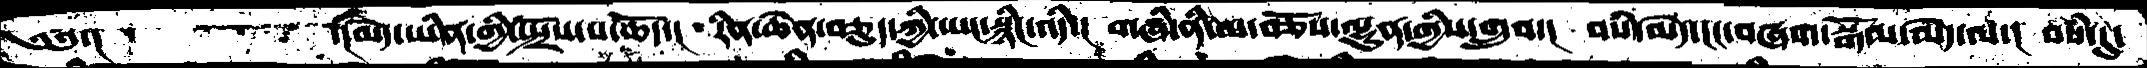༄༅་།       ་།མེད་ཡིན་གྱི་སྤྲོས་པ་ཆོད་།  རིན་ཆེན་བཅུད་ཀྱི་ཡང་སྙིང་འདི་།  གཞི་ནི་མ་བཅོས་ལྷུན་གྱིས་གྲུབ་།  བསཾ་མེད་ངང་བཞག་སྒོམ་མེད་ལ་།  བསཾ་དུ་
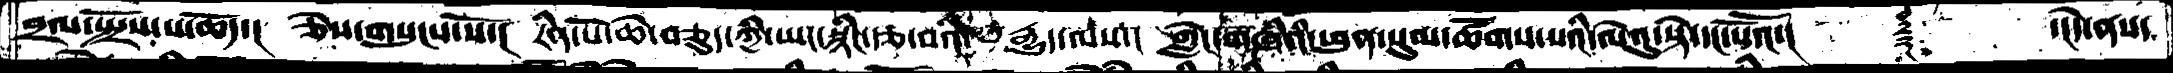བྲལ་སྤྲོས་པ་ཆོད་། ཅེས་གསུངས་སོ་། རིན་པོ་ཆེ་བཅུད་ཀྱི་ཡང་སྙིང་རྩ་བའི་་རྒྱུད་ལས་། གླེང་གཞིའི་ཕུན་སུམ་ཚོགས་པའི་ལེའུ་སྟེ་དང་པོའོ་།   ༈  ་།དེ་ནས་
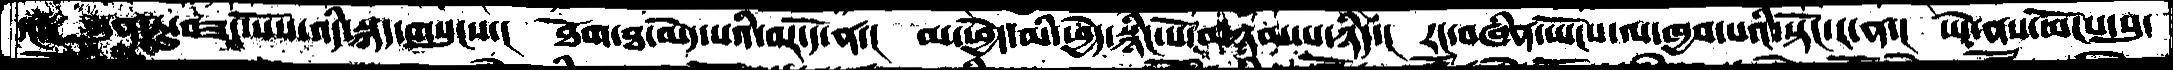དང། ཀུན་ཏུ་བཟང་པོས་འདི་སྐད་གསུངས་། ཐོག་ཐ་མེད་པའི་བར་དོ་ན་། མ་ཕྱེད་མི་ཕྱེད་སྙིང་པོ་མཉམ་པ་ཉིད་། རང་བཞིན་ཡོངས་ལ་ཁྱབ་པའི་སྟོང་ར་ན་། ཡེ་ནས་ཡོངས་སུ་
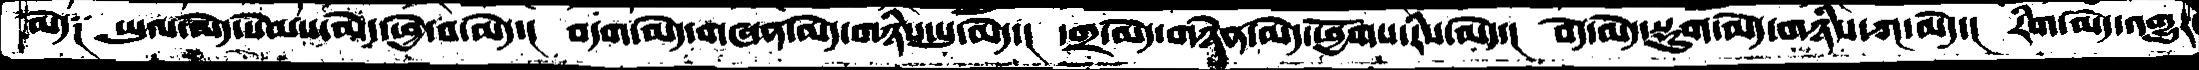མེད༑  ཡུལ་མེད་སེམས་མེད་ཕྱེ་བ་མེད་།  བདག་མེད་གཞན་མེད་གཉིས་སུ་མེད་།  དགྲ་མེད་གཉེན་མེད་ཕྱོགས་རིས་མེད་།  བདེ་མེད་སྡུག་མེད་གཉིས་ཀ་མེད་།  རིག་མེད་འགྱུར་
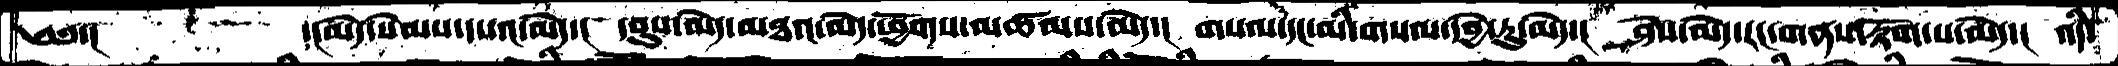༄༅་།      ་།མེད་སེམས་དཔའ་མེད་། དབུས་མེད་མཐའ་མེད་ཕྱོགས་མཚམས་མེད་། གསལ་དང་མི་གསལ་དབྱེ་རུ་མེད་།  ཤེས་མེད་རང་གནས་རྟོག་པ་མེད་།  འདི་
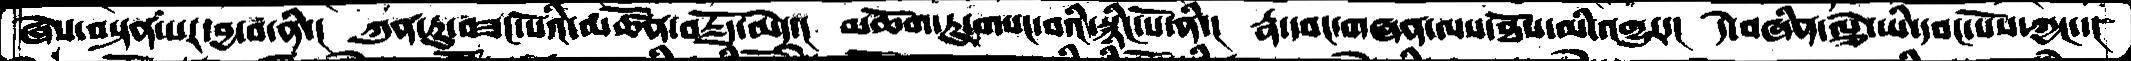ཞེས་བསྟན་པར་བྱ་བ་ནི་།  ཀུན་ཏུ་བཟང་པོའི་མཚོན་བརྗོད་མེད་།  མཆོག་ཏུ་གསང་བའི་སྙིང་པོ་ནི་།  རྣ་དབང་གཞན་ལས་ཐོས་མི་འགྱུར་།  དེ་བཞིན་ལྕེ་ཡི་དབང་པོས་ཀྱང་།
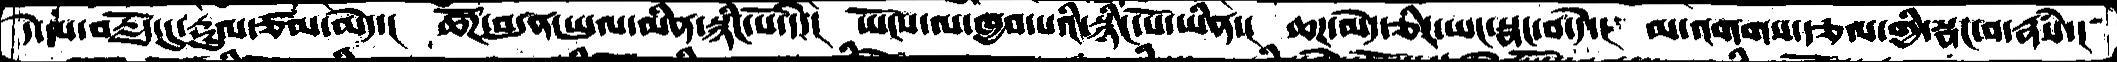དེ་ལ་བརྗོད་དུ་རྡུལ་ཙམ་མེད་།  ཚོཌ་བདུན་ཡུལ་མིན་སྙིང་པོ་དེ་།  ཡོངས་ལ་ཁྱབ་པའི་སྙིང་པོ་ཡིན་།  ཆཌ་མེད་ཅིར་ཡང་སྣང་བ་དེ་།  མ་འགགས་རྩལ་གྱི་སྣང་བ་རྣཾས་།
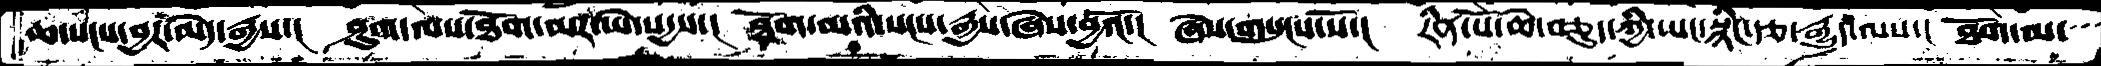ཆ་སངས་བྱར་མེད་རྒྱས་།  ཤུག་ལས་ཐོག་མར་ཡེ་སདྱས་།  ཐོག་མའི་སངས་རྒྱས་ཞེས་བྱའོ་།  ཞེས་གསུངས་སོ་།  རིན་པོ་ཆེ་བཅུད་ཀྱི་ཡང་སྙིང་རྩ་རྒྱུད་ལས་།  ཐོག་མ་
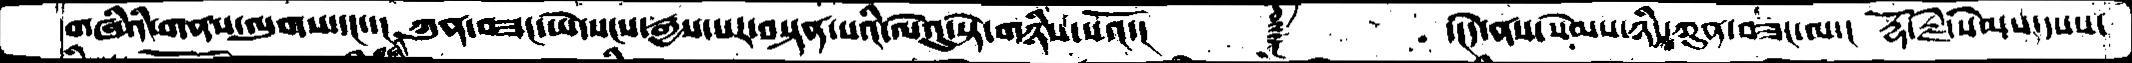གཞིའི་གནས་ལུགས་དང་་།  ཀུན་བཟང་ཡེ་སངས་རྒྱས་པར་བསྟན་པའི་ལེའུ་སྟེ་གཉིས་པའོ་།      ༈    ་།དེ་ནས་སེམས་ཉིད་ཀུན་བཟང་ལ་།  རྡོ་རྗེ་སེམས་དཔས་
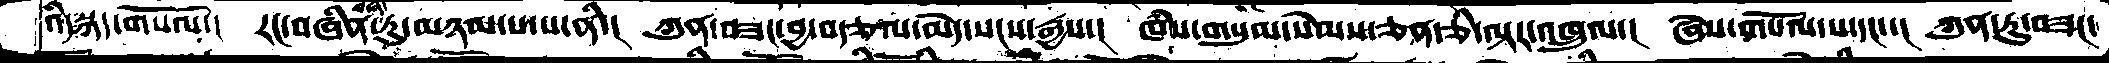འདི་སྐད་གསོལ་། རང་བཞིན་རུ་མཉམ་ས་པ་ནི་།  ཀུན་བཟང་བྱ་བརྩལ་མེད་སངས་རྒྱས་། ཁཾས་གསུམ་སེམས་ཅན་ཅི་ལྟར་འཁྲུལ་།  ཞེས་གསོལ་པ་དང་་། ཀུན་ཏུ་བཟང་
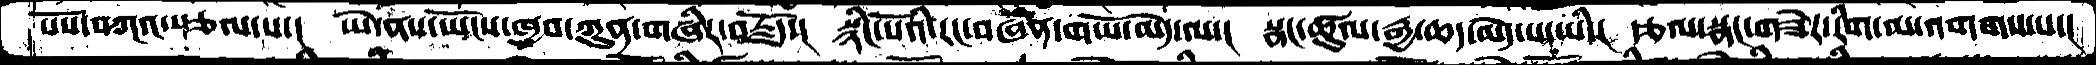པོས་བཀའ་སྩལ་པ་།  ཡེ་ནས་ཡོངས་ཁྱབ་ཀུན་གཞིར་བརྗོད་།  སྙིང་པོའི་རང་བཞིན་གཡོ་མེད་ལ་།  སྣང་ཚུལ་རྒྱ་ཆད་མེད་པ་ཡི་།  རྩལ་སྣང་གཟེར་རིག་མ་འགགས་པ་།
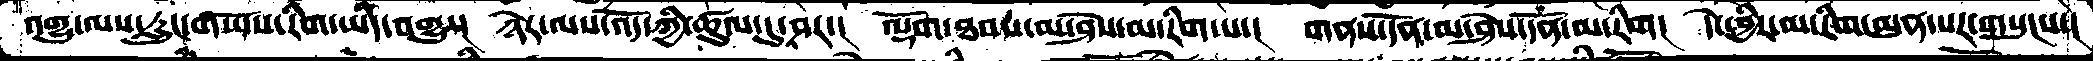འགྱུ་ལས་རླུང་གཡོས་རིག་ཡིད་འགྱུ་།  ཉེར་ལས་འོད་ཀྱི་ཚུལ་དུ་ཤར་།  ལྡོག་ཐབས་མ་ཤེས་མ་རིག་པ་།  གནས་དོན་མ་ཤེས་དོན་མ་རིག།  དེ་ཕྱིར་མ་རིག་མུན་པར་གསུངས་།
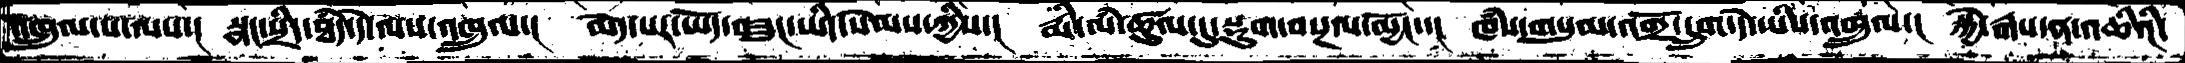འཁྲུལ་པ་ལས་།  སྣང་སྲིད་ཐཾད་དེ་ལས་འཁྲུལ་།  མེད་པར་ཡོད་བཟུང་ཡིད་སེམས་ཀྱིས་།  རྨི་ལཾ་ཚུལ་དུ་སྡུག་བསྔལ་མྱོང་་།  ཁཾས་གསུམ་འགྲོ་དྲུག་དེ་ཡིས་འཁྲུལ་།  སྐྱེ་རྒ་ན་འཆིའི་
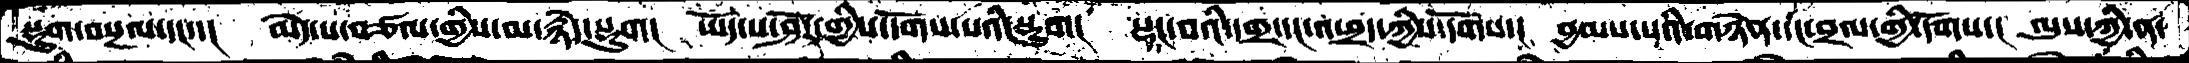སྡུག་བསྔལ་དང་་།  མེད་པ་བཙལ་གྱིས་མ་རྙེད་སྡུག།  ཡོད་པ་ཤོར་གྱིས་དོགས་པའི་སྡུག།  སྡང་བའི་དགྲ་དང་འཕྲད་ཀྱིས་དགོས་།  བྱམས་པའི་གཉེན་དང་ཕྲལ་གྱི་དོགས་།  ལུསཀྱི་ན་
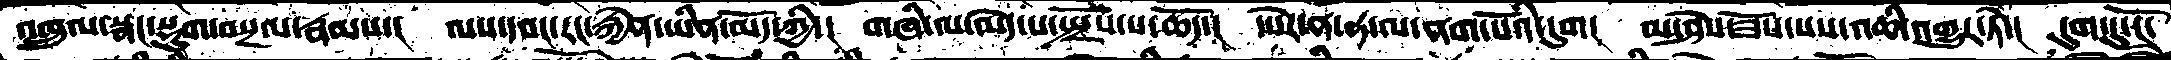འཁྲུལ་སྣང་སྡུག་བསྔལ་རྣམས་།  ལས་དབང་རང་རྐྱེན་ཡིན་མོད་ཀྱི་།  གཞི་ལ་མེད་པ་སྤྲོས་པ་ཆོད་།  དཔེར་ན་ཧ་ལ་ནག་པོའི་དུག།  མ་ཤེས་ཟོས་པས་འཆི་འགྱུར་ཏེ་།  དུག་དུ་ངོ་
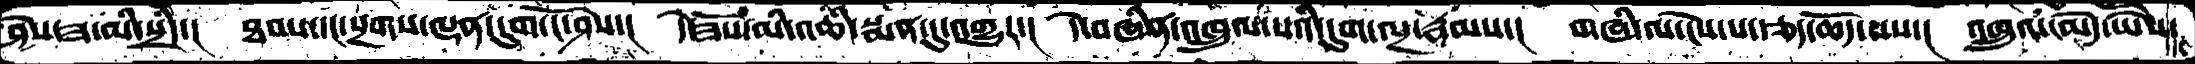ཤེས་ཟ་མི་སྲིད་།  ཐབས་དང་སྔགས་ལྡན་ངུག་ངོ་ཤེས་།  དེ་ཟོས་མི་འཆི་སྨན་དུ་འགྱུར་།  དེ་བཞིན་འཁྲུལ་པའི་དུག་ལྔ་རྣམས་།  གཞི་ལ་ངེས་པ་རྩད་ཆོད་པས་།  འཁྲུལ་མེད་ཡཻས་
